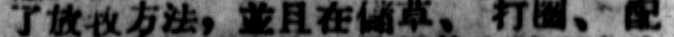了放牧方法，並且在備草、 打圈、 配
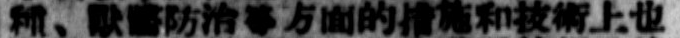種、獸醫防治等方面的措施和技術上也
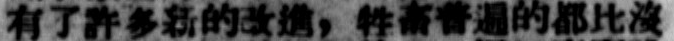有了許多新的改進，牲畜普遍的都比沒
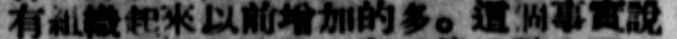有組織起來以前增加的多。這個事實說
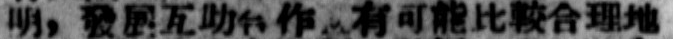明，發展互助合作就有可能比較合理地
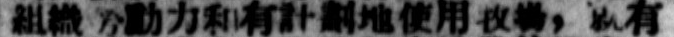組織勞動力和有計劃地使用牧場，就有
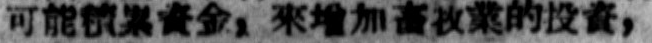可能積累資金，來增加畜牧業的投資，
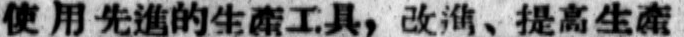使用先進的生產工具，改進、提高生產
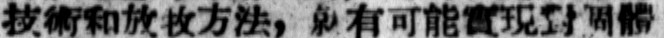技術和放牧方法，就有可能實現對個體
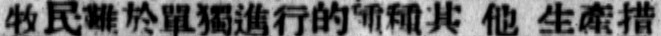牧民難於單獨進行的種種其 他 生產措
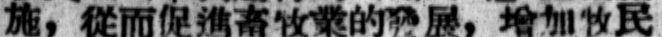施，從而促進畜牧業的發展，增加牧民
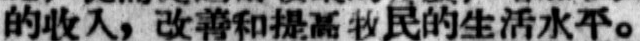的收入，改善和提高牧民的生活水平。
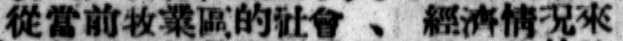從當前牧業區的社會 、 經濟情況來
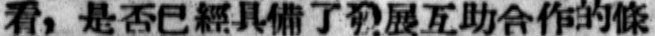看，是否已經具備了發展互助合作的條
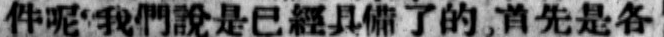件呢？我們說是已經具備了的，首先是各
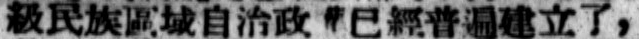級民族區域自治政策已經普遍建立了，
